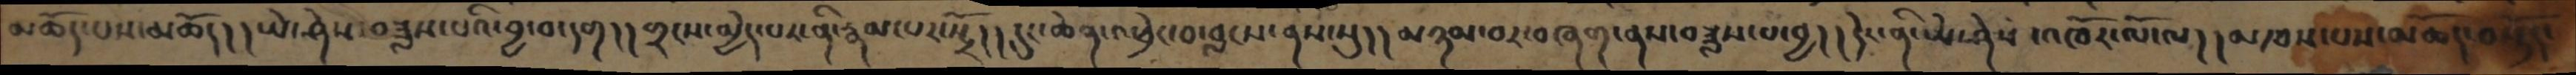མཆོད་པས་མཆོད། །ཡེ་ཤེས་བཟླས་པའི་བྱ་བ་དག། །གྲངས་མྱེད་པར་ནི་རྣམ་པར་སྤྲོ། །དུང་ཆེན་འཕྲེང་བ་བླངས་ནས་སུ། །མཉམ་བར་བཞག་ནས་བཟླས་པ་བྱ། །དེང་ནི་ཡེ་ཤེས་འཁོར་ལོ་ལ། །མཁས་པས་མཆོད་བསྟོད་
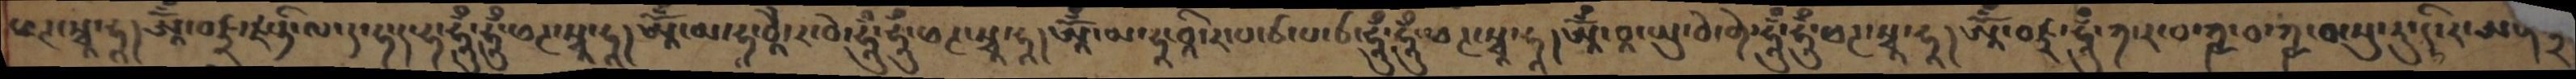ཕཊ་སྭཱ་ཧཱ།ཨཱོཾ་བཛྲ་ཛ་ཏི་ལ་ད་ཧ་ད་ཧ་ཧཱུྃ་ཧཱུྃ་ཕཊ་སྭཱ་ཧཱ།ཨཱོཾ་མ་ཧཱ་བཱཻ་ར་བེ་ཧཱུྃ་ཧཱུྃ་ཕཊ་སྭཱ་ཧཱ། ཨཱོཾ་མ་ཧཱ་བཱི་ར་པ་ཙ་པ་ཙ་ཧཱུྃ་ཧཱུྃ་ཕཊ་སྭཱ་ཧཱ། ཨཱོཾ་བཱ་ཡུ་བེ་གེ་ཧཱུྃ་ཧཱུྃ་ཕཊ་སྭཱ་ཧཱ།ཨཱོཾ་བཛྲ་ཧཱུྃ་ཀ་ར་བ་ཀྵ་བ་ཀྵ་བ་སུ་རུ་ད་རི་ཨན
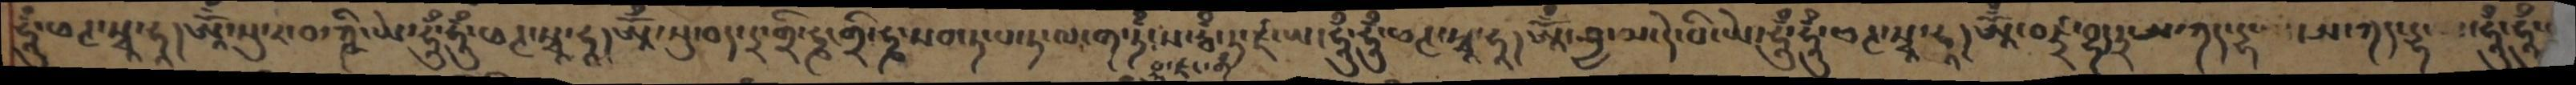ཧཱུྃ་ཕཊ་སྭཱ་ཧཱ། ཨཱོྃ་སུ་ར་བ་ཀྵི་ཡེ་ཧཱུྃ་ཧཱུྃ་ཕཊ་སྭཱ་ཧཱ། ཨཱོྃ་སུ་བད་དྲ་གྲི་ཧྞ་གྲི་ཧྞ་སབ་ཏ་པ་ཏ་ལ་ག་ཏྃ་བྷུ་ཛ་གྃ་ས་རྦྃ་ཏ་ཛ་ཡ་ཧཱུྃ་ཧཱུྃ་ཕཊ་སྭཱ་ཧཱ།  ཨཱོྃ་ཤྱ་མ་དེ་བི་ཡེ་ཧཱུྃ་ཧཱུྃ་ཕཊ་སྭཱ་ཧཱ། ཨཱོྃ་བཛྲ་བྷ་ཏྲ་ཨ་ཀད་དྷ་ཡ་ཨ་ཀད་དྷ་ཡ་ཧཱུྃ་ཧཱུྃ་
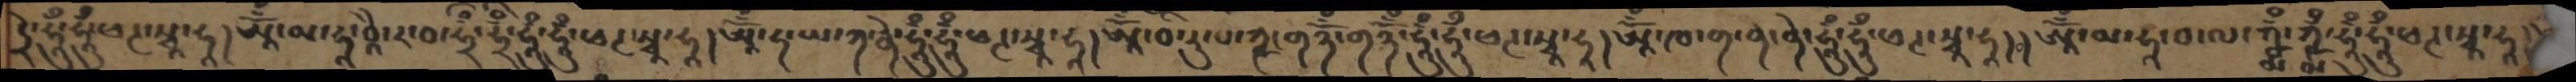དྲི་ཧཱུྃ་ཧཱུྃ་ཕཊ་སྭཱ་ཧཱ།ཨཱོྃ་མ་ཧཱ་བཱཻ་ར་བ་ཧྲྃ་ཧྲྃ་ཧཱུྃ་ཧཱུྃ་ཕཊ་སྭཱ་ཧཱ།ཨཱོྃ་ཧ་ཡ་ཀ་རྣེ་ཧཱུྃ་ཧཱུྃ་ཕཊ་སྭཱ་ཧཱ།ཨཱོྃ་བི་རུ་པ་ཀྵ་གཉོྃ་གཉོྃ་ཧཱུྃ་ཧཱུྃ་ཕཊ་སྭཱ་ཧཱ།ཨཱོྃ་ཁ་ག་ནེ་ནེ་ཧཱུྃ་ཧཱུྃ་ཕཊ་སྭཱ་ཧཱ།༠།ཨཱོྃ་མ་ཧཱ་བ་ལ་ཀྵྨྃ་ཀྵྨྃ་ཧཱུྃ་ཧཱུྃ་ཕཊ་སྭཱ་ཧཱ།
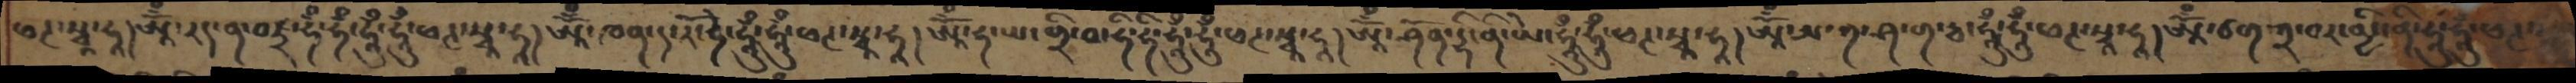ཕཊ་སྭཱ་ཧཱ། ཨཱོྃ་རད་ན་བཛྲ་ཧྃ་ཧྃ་ཧཱུྃ་ཧཱུྃ་ཕཊ་སྭཱ་ཧཱ།ཨཱོྃ་ཁན་ད་རོ་ཧེ་ཧཱུྃ་ཧཱུྃ་ཕཊ་སྭཱ་ཧཱ།ཨཱོྃ་ཧ་ཡ་གྲི་བ་ཧི་ཧི་ཧཱུྃ་ཧཱུྃ་ཕཊ་སྭཱ་ཧཱ།ཨཱོྃ་ཤོན་དྷི་ནི་ཡེ་ཧཱུྃ་ཧཱུྃ་ཕཊ་སྭཱ་ཧཱ།ཨཱོྃ་ཨ་ཀ་ཤ་ག་རྦ་ཧཱུྃ་ཧཱུྃ་ཕཊ་སྭཱ་ཧཱ།ཨཱོྃ་ཙག་ཀྲ་བར་མྱི་ནི་ཧཱུྃ་ཧཱུྃ་ཕཊ་
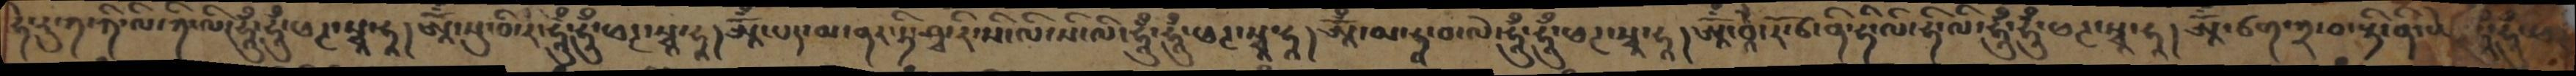ཧེ་རུ་ཀ་ཀི་ལི་ཀི་ལིངཧཱུྃ་ཧཱུྃ་ཕཊ་སྭཱ་ཧཱ། ཨཱོྃ་སུ་བི་ར་ཧཱུྃ་ཧཱུྃ་ཕཊ་སྭཱ་ཧཱ། ཨཱོྃ་པད་མ་ནར་ཏི་ཤྭ་རི་སི་ལི་སི་ལི་ཧཱུྃ་ཧཱུྃ་ཕཊ་སྭཱ་ཧཱ།ཨཱོྃ་མ་ཧཱ་བ་ལེ་ཧཱུྃ་ཧཱུྃ་ཕཊ་སྭཱ་ཧཱ། ཨཱོྃ་བཱཻ་རོ་ཙ་ནི་ཧི་ལི་ཧི་ལི་ཧཱུྃ་ཧཱུྃ་ཕཊ་སྭཱ་ཧཱ།ཨཱོྃ་ཙག་ཀྲ་བ་སྟི་ནི་སེ་ ཧཱུྃ་ཧཱུྃ་ཕཊ་
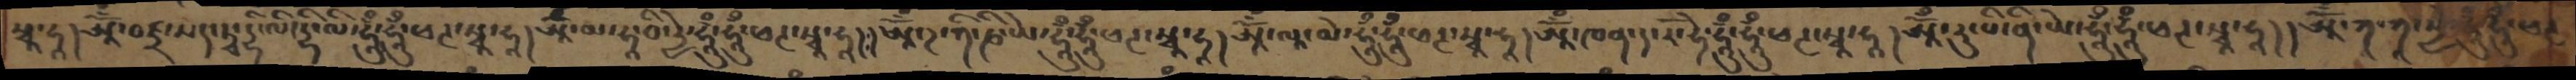སྭཱ་ཧཱ། ཨཱོྃ་བཛྲ་སད་ཏྭ་དྷི་ལི་དྷི་ལི་ཧཱུྃ་ཧཱུྃ་ཕཊ་སྭཱ་ཧཱ། ཨཱོྃ་མ་ཧ་བི་རྱེ་ཧཱུྃ་ཧཱུྃ་ཕཊ་སྭཱ་ཧཱ།  ཨཱོྃ་ཌ་ཀི་ཎི་ཡེ་ཧཱུྃ་ཧཱུྃ་ཕཊ་སྭཱ་ཧཱ། ཨཱོྃ་ལཱ་མེ་ཧཱུྃ་ཧཱུྃ་ཕཊ་སྭཱ་ཧཱ། ཨཱོྃ་ཁན་ད་རོ་ཧེ་ཧཱུྃ་ཧཱུྃ་ཕཊ་སྭཱ་ཧཱ།  ཨཱོྃ་རུ་པི་ནི་ཡེ་ཧཱུྃ་ཧཱུྃ་ཕཊ་སྭཱ་ཧཱ། །ཨཱོྃ་ཀ་ཀ་སྱེ་ཧཱུྃ་ཧཱུྃ་ཕཊ་
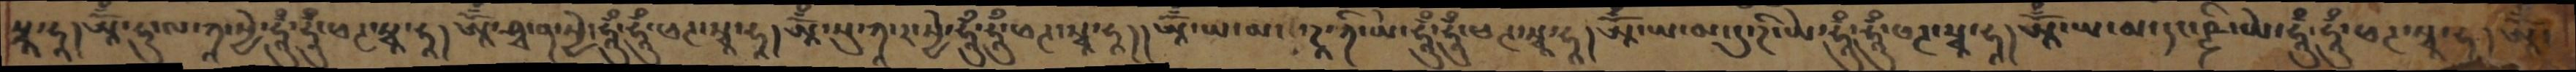སྭཱ་ཧཱ། ཨོྃ་ཧུ་ལ་ཀཱ་སྱེ་ཧཱུྃ་ཧཱུྃ་ཕཊ་སྭཱ་ཧཱ། ཨཱོྃ་ཤྭ་ན་སྱེ་ཧཱུྃ་ཧཱུྃ་ཕཊ་སྭཱ་ཧཱ།ཨཱོྃ་སུ་ཀཱ་ར་སྱེ་ཧཱུྃ་ཧཱུྃ་ཕཊ་སྭཱ་ཧཱ །། ཨཱོྃ་ཡ་མ་ ་ཌཱ་ཀི་ཡེ་ཧཱུྃ་ཧཱུྃ་ཕཊ་སྭཱ་ཧཱ། ཨཱོྃ་ཡ་མ་དུ་ཌི་ཡེ་ཧཱུྃ་ཧཱུྃ་ཕཊ་སྭཱ་ཧཱ། ཨཱོྃ་ཡ་མ་དང་ཥྚཱི་ཡེ་ཧཱུྃ་ཧཱུྃ་ཕཊ་སྭཱ་ཧཱ། ཨཱོྃ
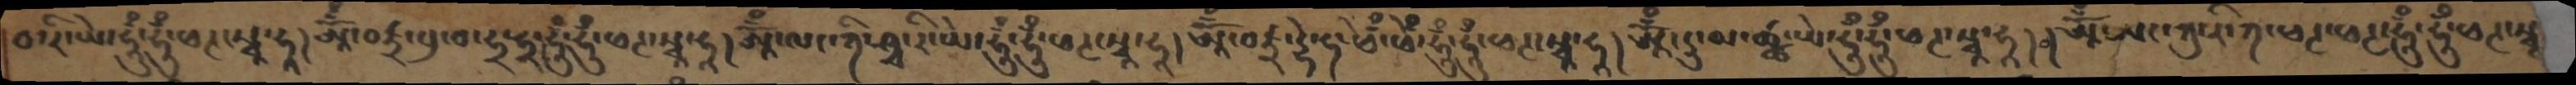བ་རི་ཡེ་ཧཱུྃ་ཧཱུྃ་ཕཊ་སྭཱ་ཧཱ།ཨཱོྃ་བཛྲ་སུ་བ་ཧྲ་ཧཱ་ཧཱུྃ་ཧཱུྃ་ཕཊ་སྭཱ་ཧཱ། ཨཱོཾ་ལང་ཀི་ཤྭ་རི་ཡེ་ཧཱུཾ་ཧཱུྃ་ཕཊ་སྭཱ་ཧཱ། ཨོྃ་བཛྲ་དྷེ་ཧ་ཕེྃ་ཕེྃ་ཧཱུྃ་ཧཱུྃ་ཕཊ་སྭཱ་ཧཱ། ཨོྃ་རུ་མ་ཚྪ་ཡེ་ཧཱུྃ་ཧཱུྃ་ཕཊ་སྭཱ་ཧཱ།༠།ཨོྃ་ཨང་ཀུ་རི་ཀ་ཕཊ་ཕཊ་ཧཱུྃ་ཧཱུྃ་ཕཊ་སྭཱ
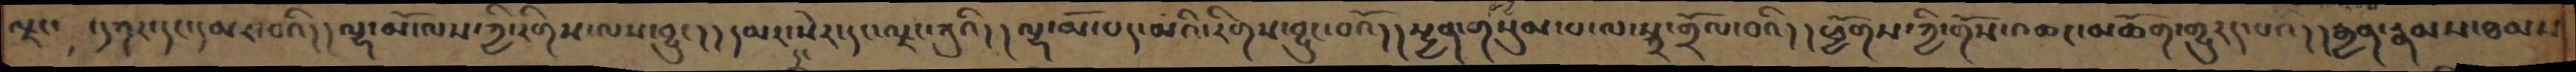ལྗང་ དཀར་དང་དམར་བའི། །ལྷ་མོ་ལས་ཀྱི་རིགས་ལས་བྱུང། །དམར་དང་སེར་དང་ལྗང་ཀུའི། །ལྷ་མོ་པད་མའི་རིགས་བྱུང་བའོ། །སྤྱན་གསུམ་པ་ལ་སྐྲ་གྲོལ་བའི། །ཕྱོགས་ཀྱི་གོས་འཆང་མཆོག་གྱུརད་པའི། །རྒྱན་རྣམས་ཐམས
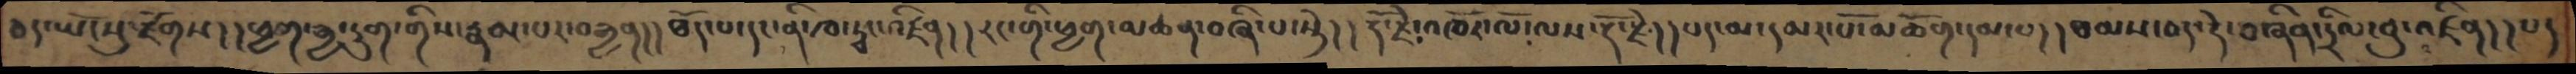ཅད་ཡོངསུ་རྫོགས། །ཕྱག་རྒྱ་དྲུག་གིས་རྣམ་པར་བརྒྱན། །ཐོད་པ་དང་ནི་ཁ་ཏྭང་འཛིན། །རང་གི་ཕྱག་མཚན་བཞི་པ་སྟེ། །རྡོ་རྗེ་འཁོར་ལོ་ལས་རྡོ་རྗེ། །པད་མ་དམར་པོ་མཆོག་དམ་པ།  །ཐམས་ཅད་དེ་བཞིན་དྲིལ་བུ་འཛིན།།པ།
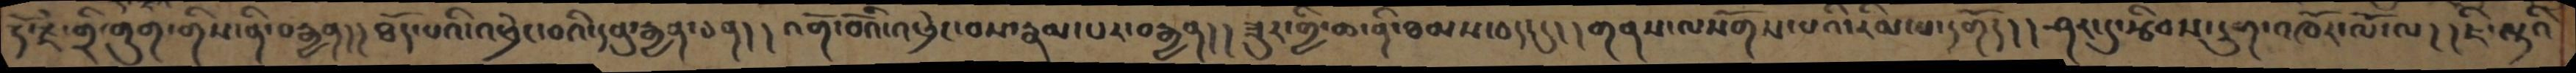རྡོ་རྗེ་གྲི་གུག་གིས་ནི་བརྒྱན། །ཐོད་པའི་འཕྲེང་བའི་དབུ་རྒྱན་ཅན། །འགོ་བོའི་འཕྲེང་བས་རྣམ་པར་བརྒྱན། །ཟུར་གྱི་ཆ་ནི་ཐམས་ཅད་དུ། །གནས་ལསོགས་པའི་རིམ་པ་དགོད། །ཤར་དུ་རྩིབས་དྲུག་འཁོར་ལོ་ལ། །ཇི་ལྟའི་
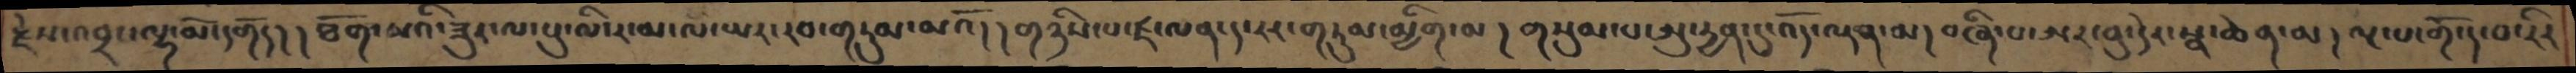རྗེས་འབྲང་ལྷ་མོ་དགོད། །ཐོག་མའི་ཟུར་ལ་པུ་མི་ར་མ་ལ་ཡར་རབ་གཏུམ་མའོ། །གཉིས་པ་ཛ་ལན་ད་རར་གཏུམ་མྱིག་མ། གསུམ་པ་ཨུ་དྱན་དུ་འོད་ལྡན་མ།  བཞི་པ་ཨར་བུ་དེར་སྣ་ཆེན་མ། ལྔ་པ་གོ་ད་བ་རིར
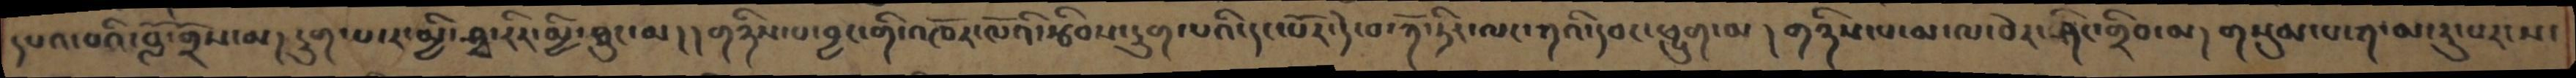དཔའ་བའི་བློ་གྲོས་མ། དྲུག་པ་ར་མྱི་ཤྭ་རིར་མྱི་ཐུང་མ། །གཉིས་པ་བྱང་གི་འཁོར་ལོའི་རྩིབས་དྲུག་པའི་དང་པོར་དེ་བ་ཀོ་ཏིར་ལང་ཀའི་དབང་ཕྱུག་མ། གཉིས་པ་མ་ལ་བེར་ཤིང་གྲིབ་མ། གསུམ་པ་ཀ་མ་རུ་པར་ས་
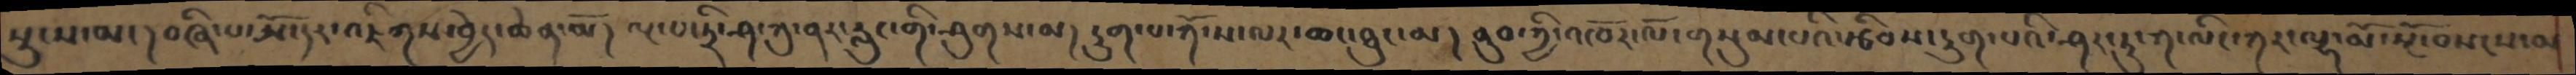སུ་ས་མང། བཞི་པ་མོ་དང་འཇིགས་བྱེད་ཆེན་མོ། ལྔ་པ་ཏྲི་ཤ་ཀུ་ནར་རླུང་གི་ཤུགས་མ། དྲུག་པ་ཀོ་ས་ལར་ཆང་ཐུང་མ། ནུབ་ཀྱི་འཁོར་ལོ་གསུམ་པའི་རྩིབས་དྲུག་པའི་ཤར་ཏུ་ཀ་ལིང་ཀར་ལྷ་མོ་སྔོ་བསངས་མ་
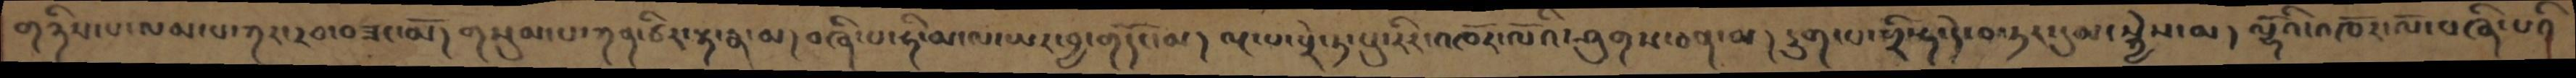གཉིས་པ་ལམ་པ་ཀར་རབ་བཟང་མོ། གསུམ་པ་ཀན་ཙིར་རྟ་རྣ་མ། བཞི་པ་ཧི་མ་ལ་ཡར་བྱ་གདོང་མ། ལྔ་པ་པྲེ་ཏ་པུ་རིར་འཁོར་ལོའི་ཤུགས་ཅན་མ ། དྲུག་པ་ཧྲི་ཧ་དེ་བ་ཏར་དུམ་སྐྱེས་མ ། ལྷོའི་འཁོར་ལོ་བཞི་པའི
